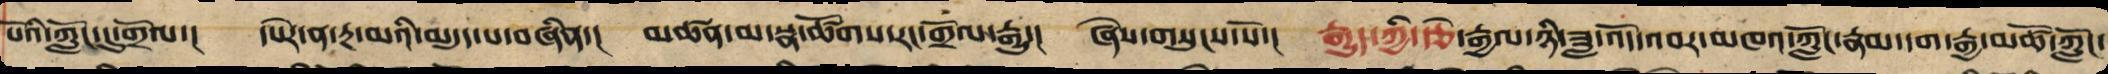པོའི་ཀློང་དུ་གྲོལ་། དཔེར་ན་རྔ་མའི་མདུད་པ་བཞིན་། མཚན་མ་སྣ་ཚོགས་རང་གྲོལ་རྒྱུ་། ཅེས་གསུངས་སོ་། རྒྱུད་ཀྱི་རྩེ་རྒྱལ་ཉི་ཟླ་འོད་འབར་མཁའ་ཀློང་རྣམ་དག་རྒྱ་མཚོ་ཀློང་
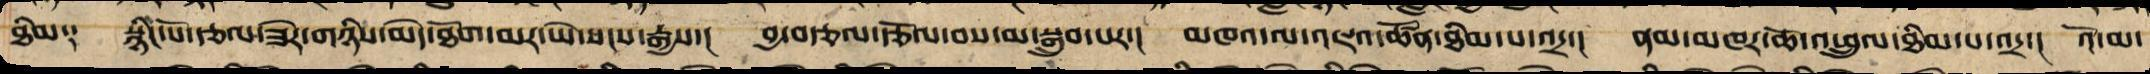ཐིམ༑ སྙིང་པོ་རྩལ་ཟེར་གཉིས་མེད་ཐོག་མར་ཡེ་སངས་རྒྱས་། བྱ་བཙལ་རྩོལ་བས་མ་བསྒྲུབས་པར་། མཁའ་ལ་འཇའ་ཚོན་ཐིམ་པ་འདྲ་། ནམ་མཁར་ཆོ་འཕྲུལ་ཐིམ་པ་འདྲ་། འོ་མ་
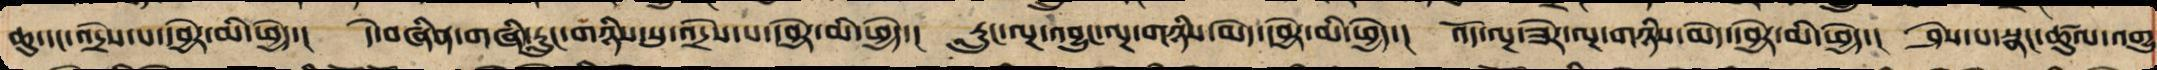ཆུ་དང་འདྲེས་པ་དབྱེར་མི་ཕྱེད་། དེ་བཞིན་གཞི་རླུང་གཉིས་སུ་འདྲེས་པ་དབྱེར་མི་ཕྱེད་། རླུང་ལྔ་འབྱུང་ལྔ་གཉིས་མེད་དབྱེར་མི་ཕྱེད་། འོད་ལྔ་ཟེར་ལྔ་གཉིས་མེད་དབྱེར་མི་ཕྱེད་། ཤེས་པ་སྣང་ཚུལ་འགྱུ
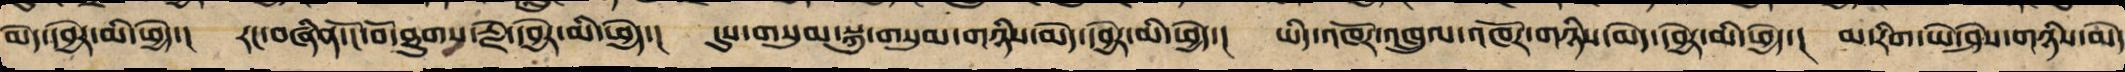མེད་དབྱེར་མི་ཕྱེད་། རང་བཞིན་ངོ་བོ་ཐུགས་རྗེ་དབྱེར་མི་ཕྱེད་། དུས་གསུམ་སྐུ་གསུམ་གཉིས་མེད་དབྱེར་མི་ཕྱེད་། ཡིད་འཁོར་འཁྲུལ་འཁོར་གཉིས་མེད་དབྱེར་མི་ཕྱེད་། མ་རིག་ཡེ་ཤེས་གཉིས་མེད
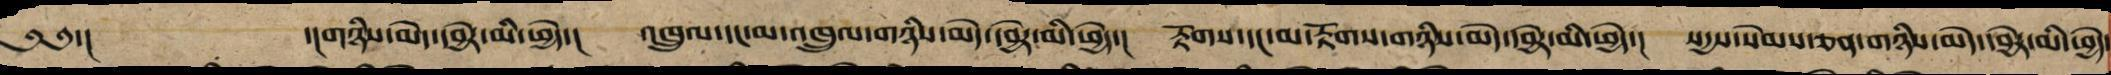༄༅་།    ་།གཉིས་མེད་དབྱེར་མི་ཕྱེད་།   འཁྲུལ་དང་མ་འཁྲུལ་གཉིས་མེད་དབྱེར་མི་ཕྱིད་།  རྟོགས་དང་མ་རྟོགས་གཉིས་མེད་དབྱེར་མི་ཕྱེད་།  སདྱས་སེམས་ཅན་གཉིས་མེད་དབྱེར་མི་ཕྱེད་
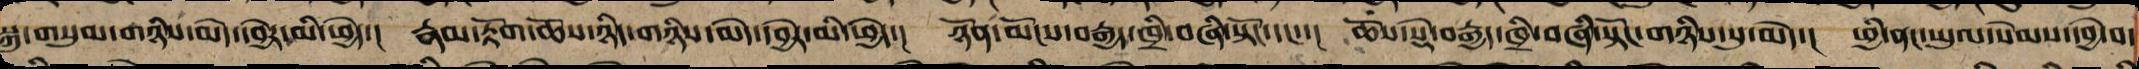སྐུ་གསུམ་གཉིས་མེད་དབྱེར་མི་ཕྱེད་། རྣམ་རྟོག་ཆོས་ཉིད་གཉིས་མེད་དབྱེར་མི་ཕྱེད་། ཉོན་མོངས་བརྒྱད་ཁྲི་བཞི་སྟོང་དང་་། ཆོས་སྡེ་བརྒྱད་ཁྲི་བཞི་སྟོང་གཉིས་སུ་མེད་། ཕྱི་ནང་ཡུལ་སེམས་དབྱེ་བ་
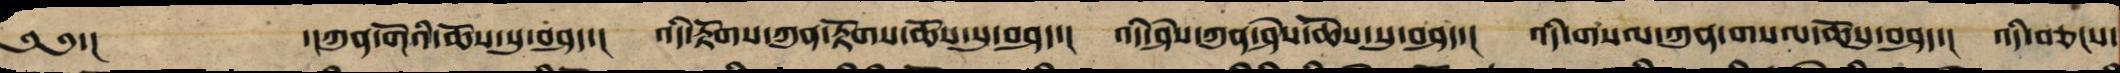༄༅་། ་།ཀུན་གོའི་ཆོས་སུ་བཤད་། འདི་རྟོགས་ཀུན་རྟོགས་ཆོས་སུ་བཤད་། འདི་ཤེས་ཀུན་ཤེས་ཆོས་སུ་བཤད་། འདི་གསལ་ཀུན་གསལ་ཆོས་སུ་བཤད་། འདི་བཅངས་
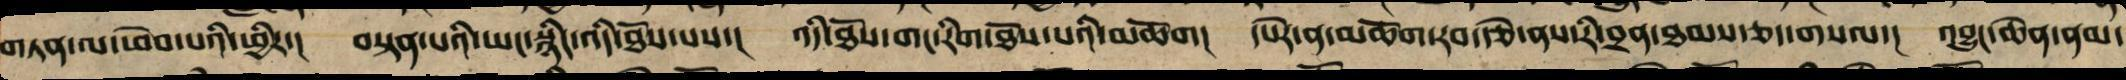གཏན་ལ་ཕེབས་པའི་ཕྱིར་། བསྟན་པའི་ཡང་སྙིང་འདི་ཐོས་པས་། འདི་ཐོས་གང་རིག་ཐོས་པའི་མཆོག། དཔེར་ན་མཆོག་རབ་རྩེ་ནས་རི་བྲན་ཐམས་ཅད་གསལ་། འབྱུང་ཆེན་ནམ་
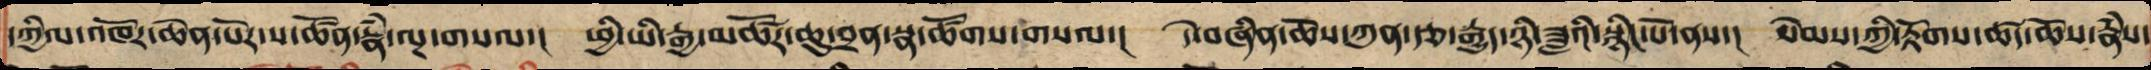དཀྱིལ་འཁོར་ཆེན་པོར་ས་ཚོན་རྣཾ་ལྔ་གསལ་། ཕྱི་ཡི་རྒྱ་མཚོར་ཆུ་བྲན་སྣ་ཚོགས་གསལ་། དེ་བཞིན་ཆོས་ཀུན་རྩ་རྒྱུད་ཉི་ཟླའི་སྙིང་པོ་ནས་། སེམས་ཀྱིས་བཏགས་པའི་ཆོས་རྣཾས་
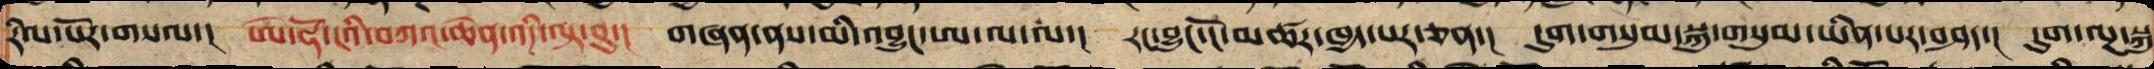རིལ་པོར་གསལ་། ཨེ་ཧོ་ངའི་བཀའ་ཆེན་འདི་ལྟ་བུ་། གཞན་ནས་མི་འབྱུང་ཨ་ལ་ལ་། རང་བྱུང་ངོ་མཚར་ཁྱད་པར་ཅན་། དུག་གསུམ་སྐུ་གསུམ་ཡིན་པར་བཤད་། དུག་ལྔ་སྐུ
